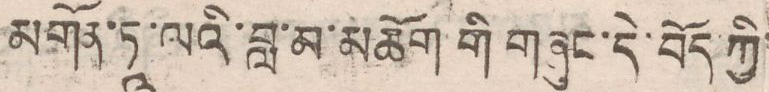མགོན་ཏཱ་ལའི་བླ་མ་མཆོག་གི གཞུང་དེ་བོད་ཀྱི་
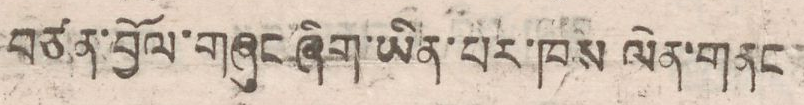བཙན་བྱོལ་གཞུང་ཞིག་ཡིན་པར་ཁས་ལེན་གནང
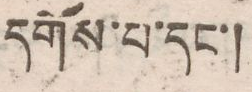དགོས་པ་དང་།
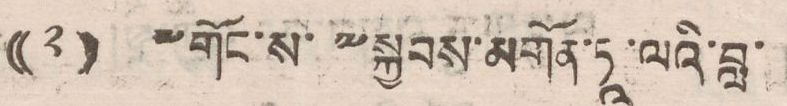((༢)) ༸གོང་ས་༸སྐྱབས་མགོན་ཏཱ་ལའི་བླ་
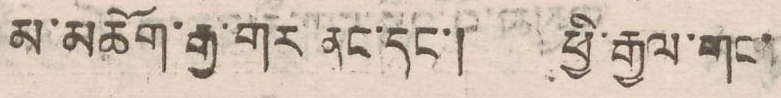མ་མཆོག་རྒྱ་གར ནང་དང་། ཕྱི་རྒྱལ་གང་
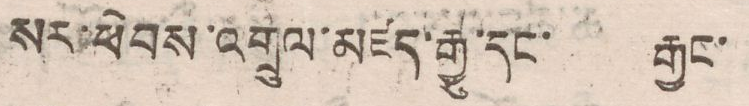སར་ཕེབས་འགྲུལ་མཛད་རྒྱུ་དང་ རྒྱང་
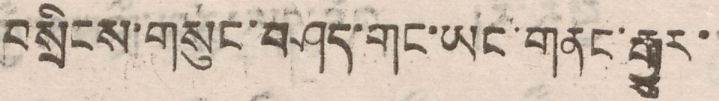བསྲིངས་གསུང་བཤད་གང་ཡང་གནང་རྒྱུར་
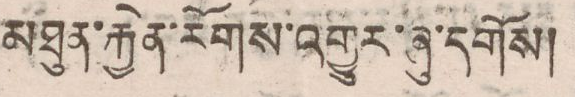མཐུན་རྐྱེན་རོགས་འགྱུར་ཞུ་དགོས།
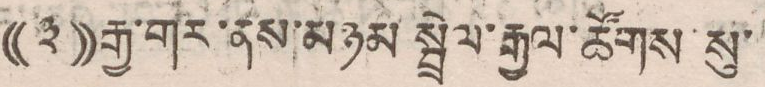((༣))རྒྱ་གར་ནས་མཉམ སྤྲེལ་རྒྱལ་ཚོགས་སུ་
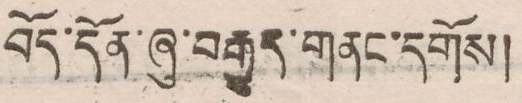བོད་དོན་ཞུ་བརྒྱུད་གནང་དགོས།
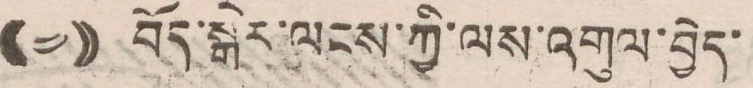((༤)) བོད་སྒེར་ལངས་ཀྱི་ལས་འགུལ་བྱེད་
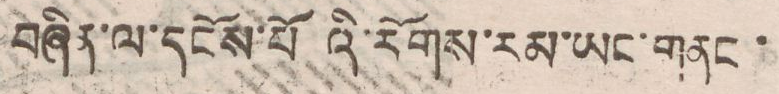བཞིན་ལ་དངོས་པོ འི་རོགས་རམ་ཡང་གནང་
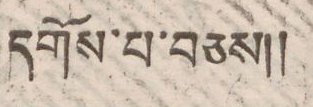དགོས་པ་བཅས།།
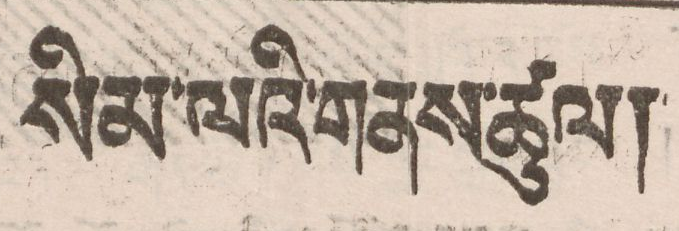སིམ་ལའི་གནས་ཚུལ།
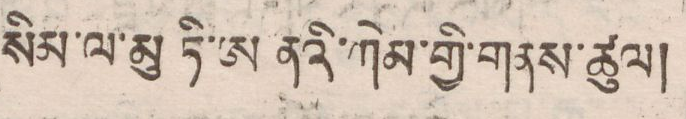སིམ་ལ་མུ་ཏི་ཨ ནའི་ཀེམ་གྱི་གནས་ཚུལ།
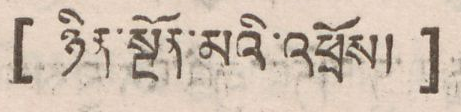[ ཉིན་སྔོན་མའི་འཕྲོས། ]
